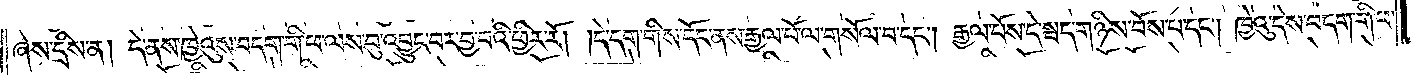ཞེས་དྲིས་ན། དེ་ནས་ཁྱེའུས་བདག་གི་ཕ་ལས་བུ་འབྱུང་བར་བྱ་བའི་ཕྱིར་རོ། །དེ་དག་གིས་དོང་ནས་རྒྱལ་པོ་ལ་གསོལ་བ་དང༌། རྒྱལ་པོས་དེ་སྦད་གཉིས་པོས་པ་དང༌། ཁྱེའུ་དེས་བདག་གི་ཕ་
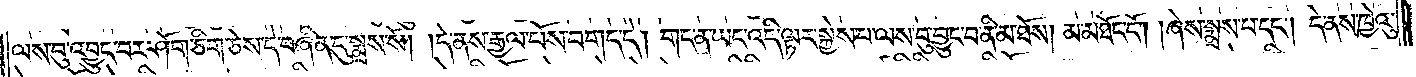ལས་བུ་འབྱུང་བར་ཤོག་ཅིག་ཅེས་དེ་བཞིན་དུ་སྨྲས་སོ། །དེ་ནས་རྒྱལ་པོས་བགད་དེ། གང་ན་ཡང་འདི་ལྟར་སྐྱེས་པ་ལས་བུ་བྱུང་བ་ནི་མ་ཐོས། མ་མཐོང་ངོ༌། །ཞེས་སྨྲས་པ་དང༌། དེ་ནས་ཁྱེའུ་
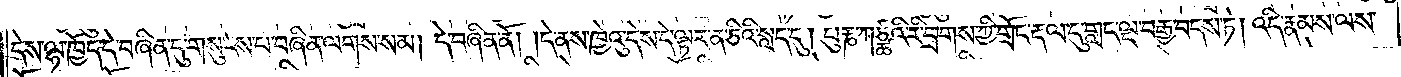དེས་ལྷ་ཁྱོད་དེ་བཞིན་དུ་གསུངས་པ་བཞིན་ལགས་སམ། དེ་བཞིན་ནོ། །དེ་ནས་ཁྱེའུ་དེས་དེ་ལྟར་ན་ཅིའི་སླད་དུ། པུརྞ་ཀཙྪའི་རི་བྲགས་ཀྱི་གྲོང་རྡལ་དུ་གླང་ལྔ་བརྒྱ་བདས་སྟེ། འདི་རྣམས་ལས་
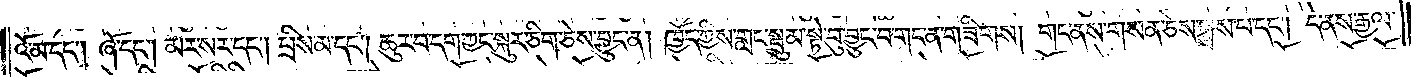འོ་མ་དང༌། ཞོ་དང༌། མར་སར་དང༌། པྲིས་མ་དང༌། ཆུར་བདག་ཀྱང་སྐུར་ཅིག་ཅེས་བྱུང་ན། ཁྱོད་ཀྱིས་གླང་སྦྲུམ་སྟེ་པུ་བྱུང་བ་གང་ན་གཟིགས། གང་ནས་གསན་ཅེས་སྨྲས་པ་དང༌། དེ་ནས་རྒྱལ་
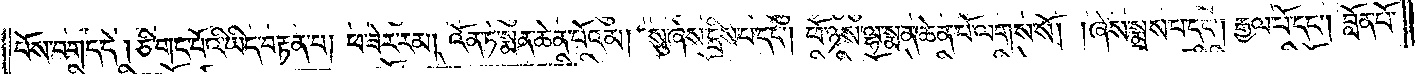པོས་བགད་དེ། ཅི་གང་པོའི་ཡིད་བརྟན་པ། ཕ་ཟེར་རམ། འོན་ཏེ་སྨན་ཆེན་པོའམ། སུ་ཞེས་དྲིས་པ་དང༌། ཕོ་ཉས་ལྷ་སྨན་ཆེན་པོ་ལགས་སོ། །ཞེས་སྨྲས་པ་དང༌། རྒྱལ་པོ་དང༌། བློན་པོ་
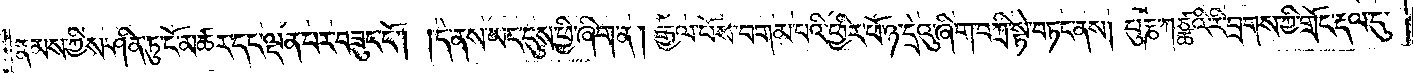རྣམས་ཀྱིས་ཤིན་ཏུ་ངོ་མཚར་དང་ལྡན་པར་བཟུང་ངོ༌། །དེ་ནས་ཡང་དུས་ཕྱི་ཞིག་ན། རྒྱལ་པོས་བགམ་པའི་ཕྱིར་ཕོ་ཉ་དྲེའུ་ཞིག་བཀྲི་སྟེ་བཏང་ནས། པུརྞ་ཀཙྪའི་རི་བྲགས་ཀྱི་གྲོང་རྡལ་དུ་
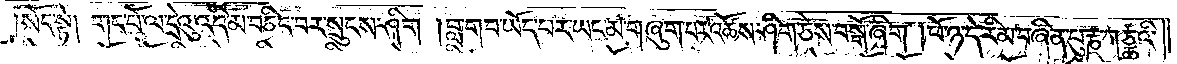སོང་སྟེ། གང་པོ་ལ་དྲེའུ་འདི་མ་བཅིང་བར་སྲུངས་ཤིག །བླ་གབ་ཡོད་པར་ཡང་མ་གཞུག་པར་འཚོས་ཤིག་ཅེས་བསྒོ་ཞིག །ཕོ་ཉ་དེ་རིམ་བཞིན་པུརྞ་ཀཙྪའི་
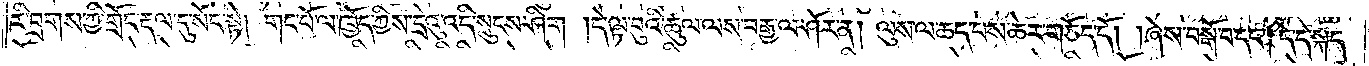རི་བྲགས་ཀྱི་གྲོང་རྡལ་དུ་སོང་སྟེ། གང་པོ་ལ་ཁྱོད་ཀྱིས་དྲེའུ་འདི་སྲུངས་ཤིག །དེ་ལྟ་བུའི་ཚུལ་ལས་བརྒྱ་ལ་ཤོར་ན། ལུས་ལ་ཆད་པས་ཆེར་གཅོད་དོ། །ཞེས་བསྒོ་བ་དང༌། དེ་དེ་སྐད་
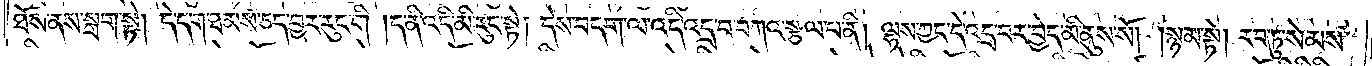ཐོས་ནས་སྐྲག་སྟེ། དེ་དག་ཐམས་ཅད་བྱར་རུང་གི །ད་ནི་འདི་མི་རུང་སྟེ། དེས་བདག་ལ་འདི་འདྲ་བ་བཀའ་སྩལ་པ་ནི། ལྷས་ཀྱང་དེ་འདྲ་བར་བྱེད་མི་ནུས་སོ། །སྙམ་སྟེ། རབ་ཏུ་སེམས་
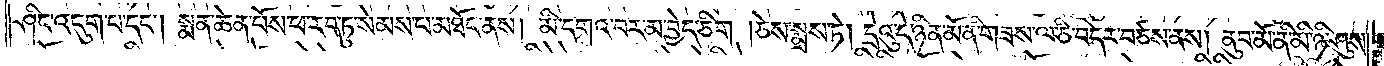ཤིང་འདུག་པ་དང༌། སྨན་ཆེན་པོས་ཕ་རབ་ཏུ་སེམས་པ་མཐོང་ནས། མི་དགའ་བར་མ་བྱེད་ཅིག །ཅེས་སྨྲས་ཏེ། དྲེའུ་དེ་ཉིན་མོ་ནི་གཟས་ལ་ཅི་བདེར་བཙས་ནས། ནུབ་མོ་ནི་མི་ཉི་ཤུས་
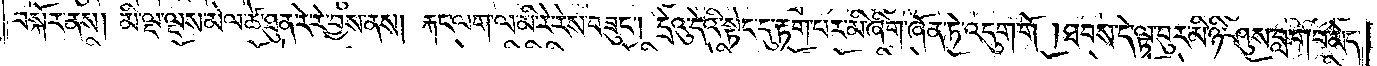བསྐོར་ནས། མི་ལྔ་ལྔས་མེལ་ཚེ་ཐུན་རེ་རེ་བྱས་ནས། རྐང་ལག་ལ་མི་རེ་རེས་བཟུང༌། དྲེའུ་དེའི་སྟེང་དུ་རྟག་པར་མི་ཞིག་ཞོན་ཏེ་འདུག་གོ །ཐབས་དེ་ལྟ་བུར་མི་ཉི་ཤུས་བླ་གབ་མེད་
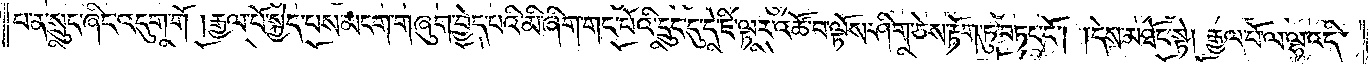པ་ན་སྲུང་ཞིང་འདུག་གོ །རྒྱལ་པོ་སྐྱེད་པས་མངག་གཞུག་བྱེད་པའི་མི་ཞིག་གང་པོའི་དྲུང་དུ་དེ་ཇི་ལྟར་འཚོ་བ་ལྟོས་ཤིག་ཅེས་རྟོག་ཏུ་བཏང་ངོ༌། །དེས་མཐོང་སྟེ། རྒྱལ་པོ་ལ་ལྷ་འདི་
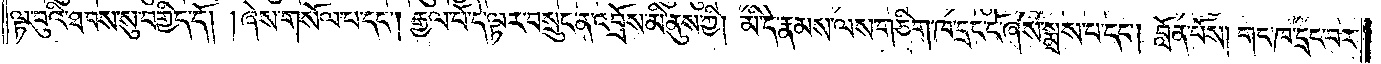ལྟ་བུའི་ཐབས་སུ་བགྱིད་དོ་།ཞེས་གསོལ་པ་དང༌། རྒྱལ་པོ་དེ་ལྟར་བསྲུང་ན་འབྲོས་མི་ནུས་ཀྱི། མི་དེ་རྣམས་ལས་གཅིག་ཁ་དྲང་ངོ་ཞེས་སྨྲས་པ་དང༌། བློན་པོས། གང་ཁ་དྲང་བར་
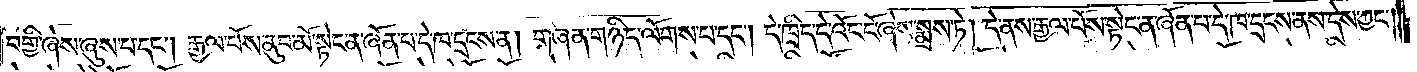བགྱི་ཞེས་ཞུས་པ་དང༌། རྒྱལ་པོས་ནུབ་མོ་སྟེང་ན་ཞོན་པ་དེ་ཁ་དྲངས་ན། གཞན་གཉིད་ལོགས་པ་དང༌། དེ་ཁྲིད་དེ་འོང་ངོ་ཞེས་སྨྲས་ཏེ། དེ་ནས་རྒྱལ་པོས་སྟེང་ན་ཞོན་པ་དེ་ཁ་དྲངས་ནས་དེས་ཀྱང༌།
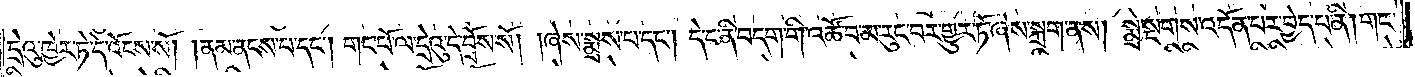དྲེའུ་ཁྱེར་ཏེ་དེ་འོངས་སོ། །ནམ་ནངས་པ་དང༌། གང་པོ་ལ་དྲེའུ་དེ་བྲོས་སོ། །ཞེས་སྨྲས་པ་དང༌། དེ་ང་ནི་བདག་གི་འཚོ་བ་མ་རུང་བར་གྱུར་ཏོ་ཞེས་སྐྲག་ནས། སྨྲེ་སྔགས་འདོན་པར་བྱེད་པ་ནི། གང་
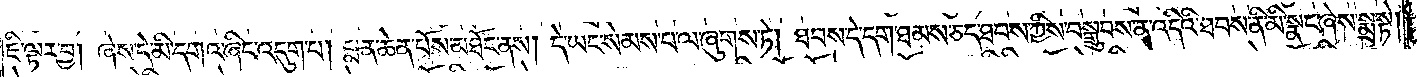ཇི་ལྟར་བྱ། ཞེས་དེ་མི་དགའ་ཞིང་འདུག་པ། སྨན་ཆེན་པོས་མཐོང་ནས། དེ་ཡང་སེམས་པ་ལ་ཞུགས་ཏེ། ཐབས་དེ་དག་ཐམས་ཅད་ཐབས་ཀྱིས་བསྒྲུབས་ན་འདིའི་ཐབས་ནི་མི་སྣང་ཞེས་སྨྲ་སྟེ།
